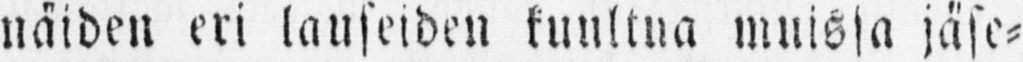näiden eri lauseiden kuultua muissa jäse-
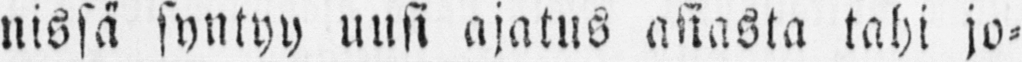nissä syntyy uusi ajatus asiasta tahi jo-
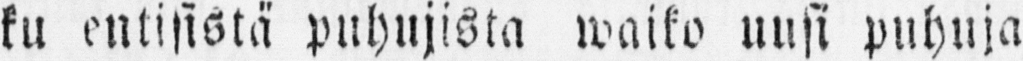ku entisistä puhujista waiko uusi puhuja
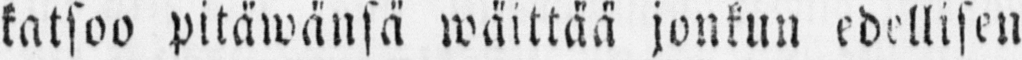katsoo pitäwänsä wäittää jonkun edellisen
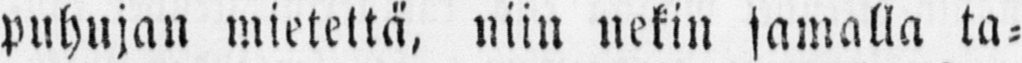puhujan mietettä, niin nekin samalla ta-
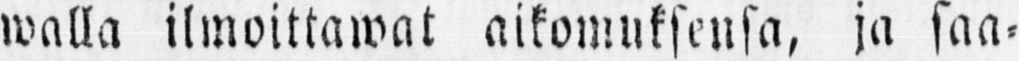walla ilmoittawat aikomuksensa, ja saa-
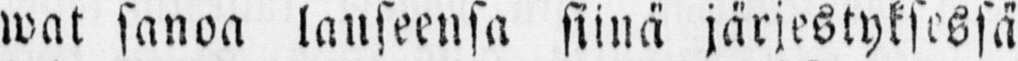wat sanoa lauseensa siinä järjestyksessä
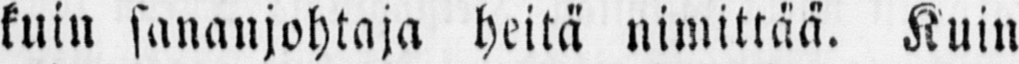kuin sananjohtaja heitä nimittää. Kuin
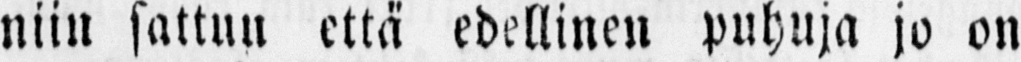niin sattuu että edellinen puhuja jo on
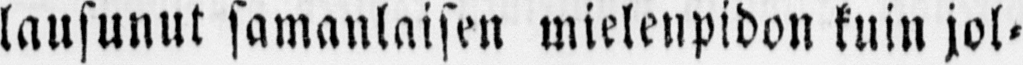lausunut samanlaisen mielenpidon kuin jol-
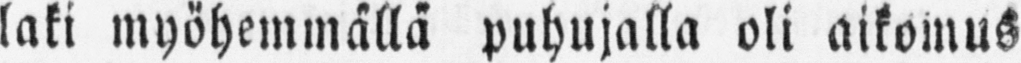laki myöhemmällä puhujalla oli aikomus
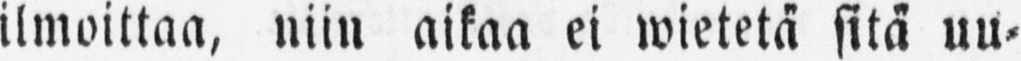ilmoittaa, niin aikaa ei wietetä sitä uu-
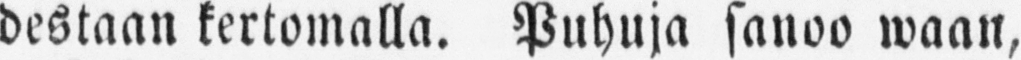destaan kertomalla. Puhuja sanoo waan,
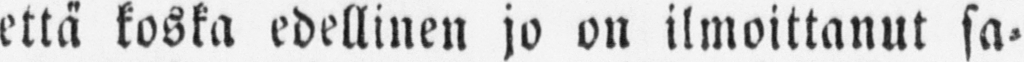että koska edellinen jo on ilmoittanut sa-
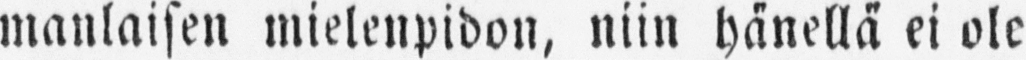manlaisen mielenpidon, niin hänellä ei ole
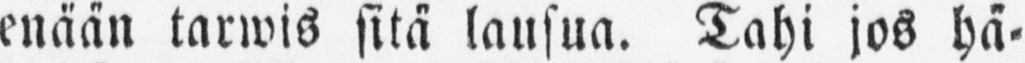enään tarwis sitä lausua. Tahi jos hä-
